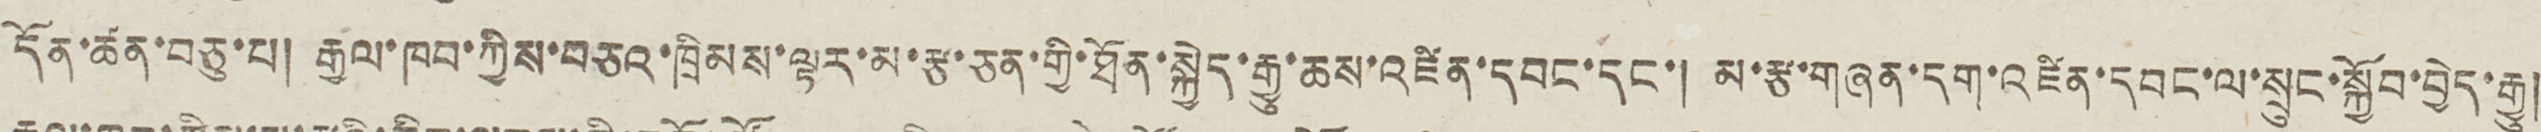དོན་ཚན་བཅུ་པ། རྒྱལ་ཁབ་ཀྱིས་བཅའ་ཁྲིམས་ལྟར་མ་རྩ་ཅན་གྱི་ཐོན་སྐྱེད་རྒྱུ་ཆས་འཛིན་དབང་དང་། མ་རྩ་གཞན་དག་འཛིན་དབང་ལ་སྲུང་སྐྱོབ་བྱེད་རྒྱུ།
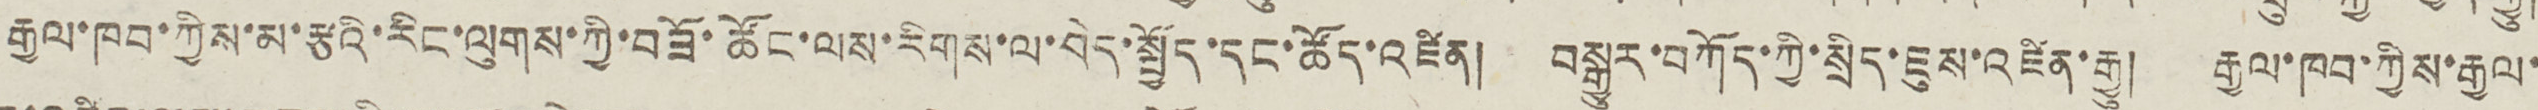རྒྱལ་ཁབ་ཀྱིས་མ་རྩའི་རིང་ལུགས་ཀྱི་བཟོ་ཚོང་ལས་རིགས་ལ་བེད་སྤྱོད་དང་ཚོད་འཛིན། བསྒྱུར་བཀོད་ཀྱི་སྲིད་ཇུས་འཛིན་རྒྱུ། རྒྱལ་ཁབ་ཀྱིས་རྒྱལ་
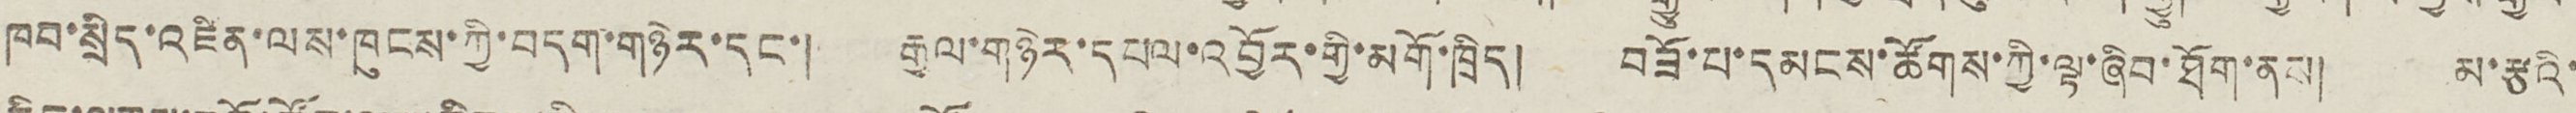ཁབ་སྲིད་འཛིན་ལས་ཁུངས་ཀྱི་བདག་གཉེར་དང་། རྒྱལ་གཉེར་དཔལ་འབྱོར་གྱི་མགོ་ཁྲིད། བཟོ་པ་དམངས་ཚོགས་ཀྱི་ལྟ་ཞིབ་ཐོག་ནས། མ་རྩའི་
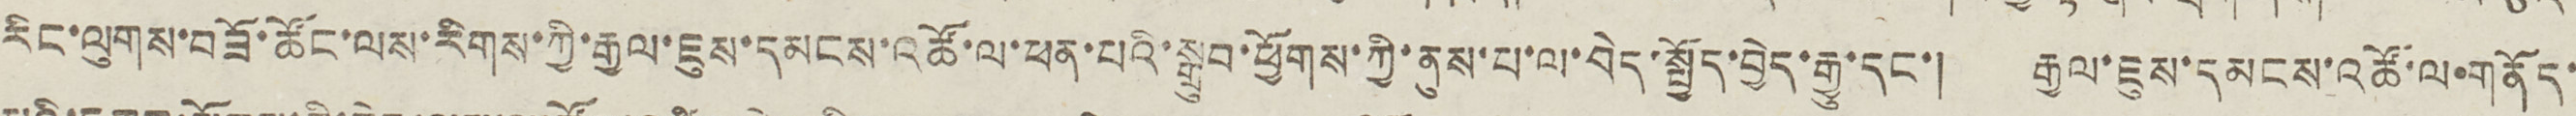རིང་ལུགས་བཟོ་ཚོང་ལས་རིགས་ཀྱི་རྒྱལ་ཇུས་དམངས་འཚོ་ལ་ཕན་པའི་སྒྲུབ་ཕྱོགས་ཀྱི་ནུས་པ་ལ་བེད་སྤྱོད་བྱེད་རྒྱུ་དང་། རྒྱལ་ཇུས་དམངས་འཚོ་ལ་གནོད་
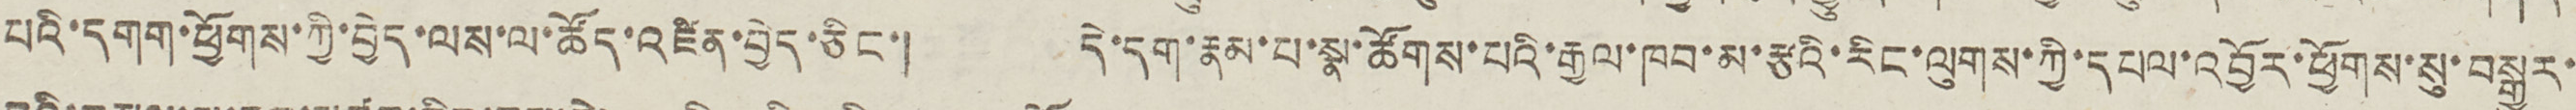པའི་དགག་ཕྱོགས་ཀྱི་བྱེད་ལས་ལ་ཚོད་འཛིན་བྱེད་ཅིང་། དེ་དག་རྣམ་པ་སྣ་ཚོགས་པའི་རྒྱལ་ཁབ་མ་རྩིའ་རིང་ལུགས་ཀྱི་དཔལ་འབྱོར་ཕྱོགས་སུ་བསྒྱུར་
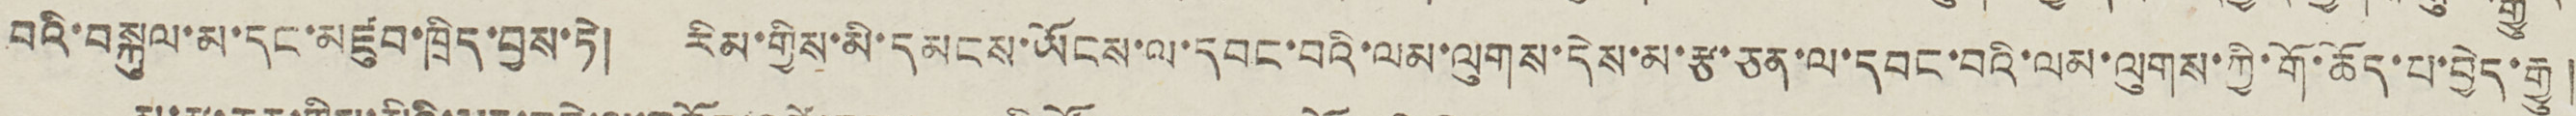བའི་བསྐུལ་མ་དང་མཛུབ་ཁྲིད་བྱས་ཏེ། རིམ་གྱིས་མི་དམངས་ཡོངས་ལ་དབང་བའི་ལམ་ལུགས་དེས་མ་རྩ་ཅན་ལ་དབང་བའི་ལམ་ལུགས་ཀྱི་གོ་ཆོད་པ་བྱེད་རྒྱུ།
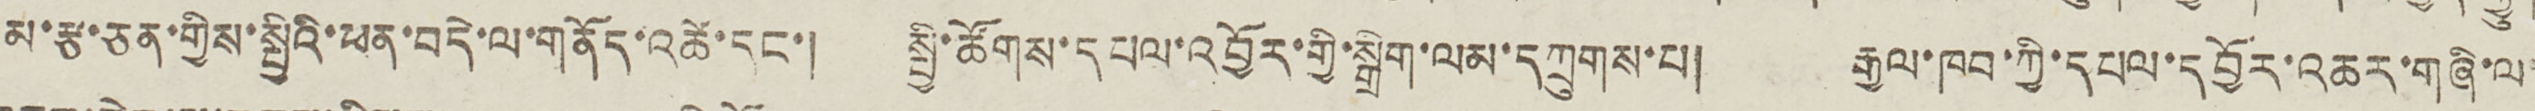མ་རྩ་ཅན་གྱིས་སྤྱིའི་ཕན་བདེ་ལ་གནོད་འཚོ་དང་། སྤྱི་ཚོགས་དཔལ་འབྱོར་གྱི་སྒྲིག་ལམ་དཀྲུགས་པ། རྒྱལ་ཁབ་ཀྱི་དཔལ་དབྱོར་འཆར་གཞི་ལ་
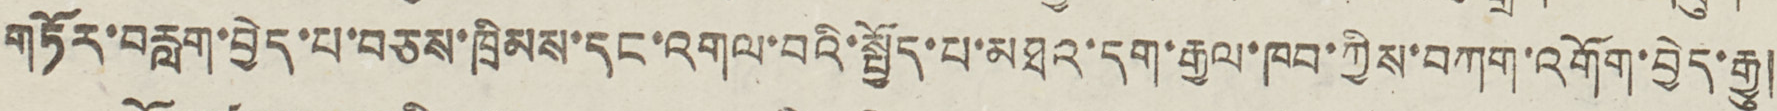གཏོར་བརླག་བྱེད་པ་བཅས་ཁྲིམས་དང་འགལ་བའི་སྤྱོད་པ་མཐའ་དག་རྒྱལ་ཁབ་ཀྱིས་བཀག་འགོག་བྱེད་རྒྱུ།
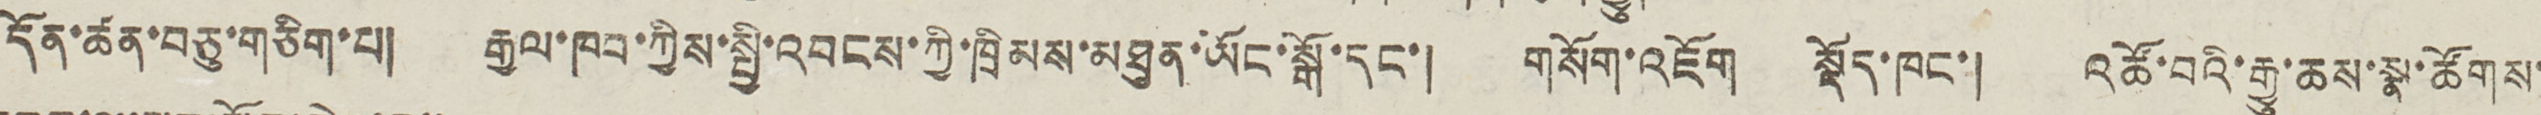དོན་ཚན་བཅུ་གཅིག་པ། རྒྱལ་ཁབ་ཀྱིས་སྤྱི་འབངས་ཀྱི་ཁྲིམས་མཐུན་ཡོང་སྒོ་དང་། གསོག་འཇོག སྡོད་ཁང་། འཚོ་བའི་རྒྱུ་ཆས་སྣ་ཚོགས་
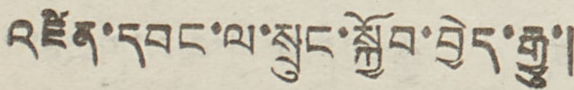འཛིན་དབང་ལ་སྲུང་སྐྱོབ་བྱེད་རྒྱུ་།
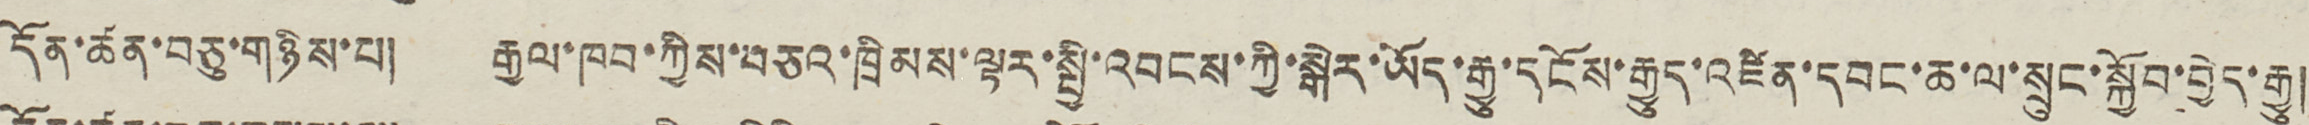དོན་ཚན་བཅུ་གཉིས་པ། རྒྱལ་ཁབ་ཀྱིས་བཅའ་ཁྲིམས་ལྟར་སྤྱི་འབངས་ཀྱི་སྒེར་ཡོད་རྒྱུ་དངོས་རྒྱུད་འཛིན་དབང་ཆ་ལ་སྲུང་སྐྱོབ་བྱེད་རྒྱུ།
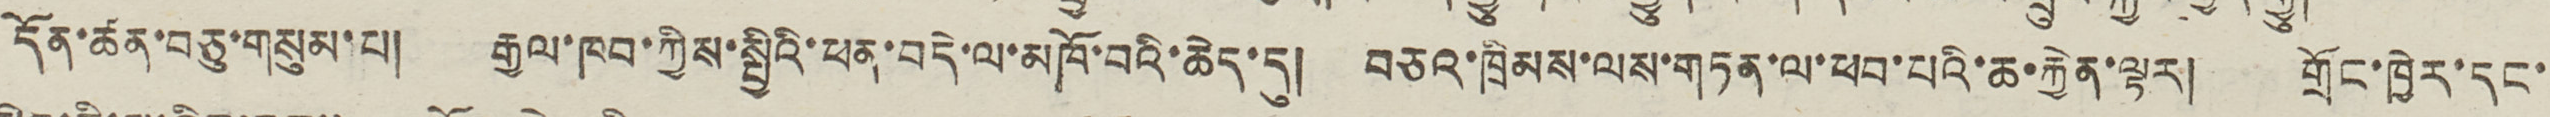དོན་ཚན་བཅུ་གསུམ་པ། རྒྱལ་ཁབ་ཀྱིས་སྤྱིའི་ཕན་བདེ་ལ་མཁོ་བའི་ཆེད་དུ། བཅའ་ཁྲིམས་ལས་གཏན་ལ་ཕབ་པའི་ཆ་རྐྱེན་ལྟར། གྲོང་ཁྱེར་དང་
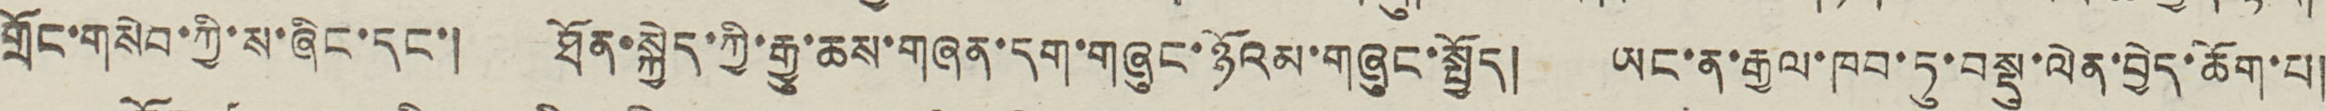གྲོང་གསེབ་ཀྱི་ས་ཞིང་དང་། ཐོན་སྐྱེད་ཀྱི་རྒྱུ་ཆས་གཞན་དག་གཞུང་ཉོའམ་གཞུང་སྤྱོད། ཡང་ན་རྒྱལ་ཁབ་ཏུ་བསྡུ་ལེན་བྱེད་ཆོག་པ།
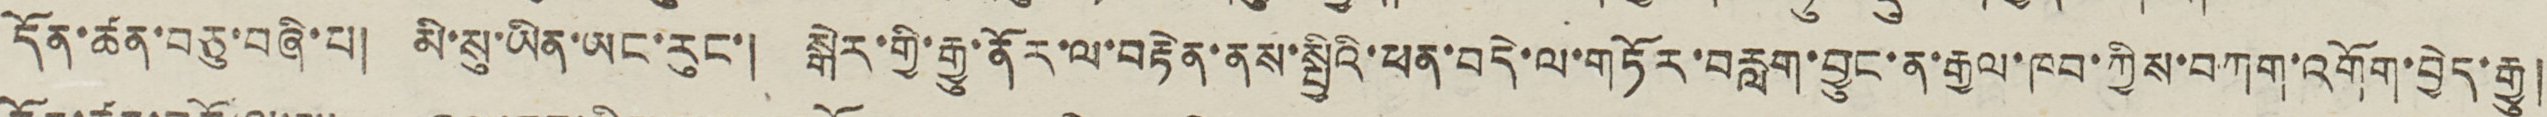དོན་ཚན་བཅུ་བཞི་པ། མི་སུ་ཡིན་ཡང་རུང་། སྒེར་གྱི་རྒྱུ་ནོར་ལ་བརྟེན་ནས་སྤྱིའི་ཕན་བདེ་ལ་གཏོར་བརླག་བྱུང་ན་རྒྱལ་ཁབ་ཀྱིས་བཀག་འགོག་བྱེད་རྒྱུ།
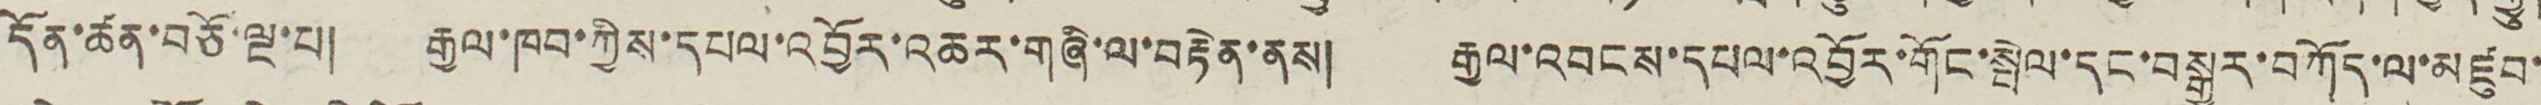དོན་ཚན་བཅོ་ལྔ་པ། རྒྱལ་ཁབ་ཀྱིས་དཔལ་འབྱོར་འཆར་གཞི་ལ་བརྟེན་ནས། རྒྱལ་འབངས་དཔལ་འབྱོར་གོང་སྤེལ་དང་བསྒྱུར་བཀོད་ལ་མཛུབ་
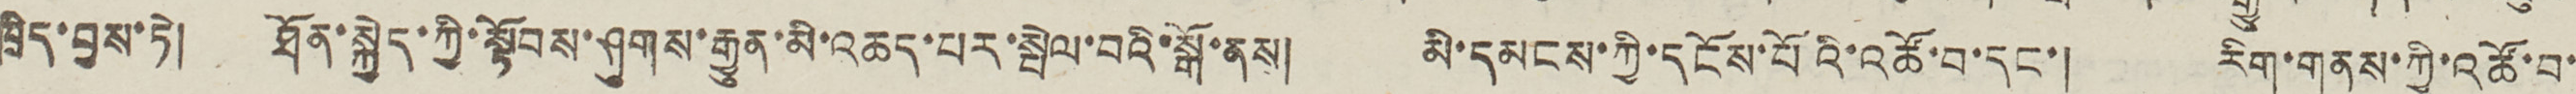ཁྲིད་བྱས་ཏེ། ཐོན་སྐྱེད་ཀྱི་སྟོབས་ཤུགས་རྒྱུན་མི་འཆད་པར་སྤེལ་བའི་སྒོ་ནས། མི་དམངས་ཀྱི་དངོས་པོའི་འཚོ་བ་དང་། རིག་གནས་ཀྱི་འཚོ་བ་
